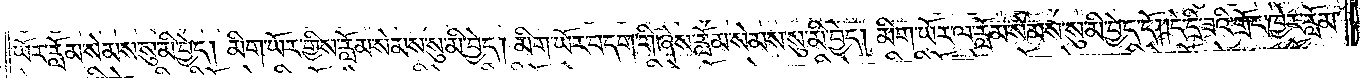ཡོར་རློམ་སེམས་སུ་མི་བྱེད། མིག་ཡོར་གྱིས་རློམ་སེམས་སུ་མི་བྱེད། མིག་ཡོར་བདག་གི་ཞེས་རློམ་སེམས་སུ་མི་བྱེད། མིག་ཡོར་ལ་རློམ་སེམས་སུ་མི་བྱེད་དོ། །དེ་དྲི་ཟའི་གྲོང་ཁྱེར་རློམ་
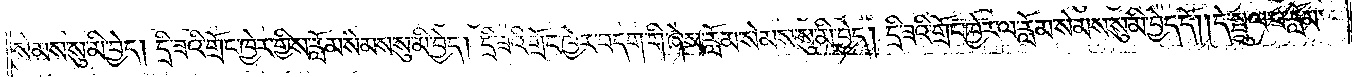སེམས་སུ་མི་བྱེད། དྲི་ཟའི་གྲོང་ཁྱེར་གྱིས་རློམ་སེམས་སུ་མི་བྱེད། དྲི་ཟའི་གྲོང་ཁྱེར་བདག་གི་ཞེས་རློམ་སེམས་སུ་མི་བྱེད། དྲི་ཟའི་གྲོང་ཁྱེར་ལ་རློམ་སེམས་སུ་མི་བྱེད་དོ། །དེ་སྤྲུལ་པ་རློམ་
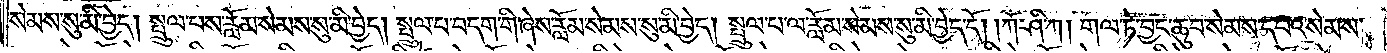སེམས་སུ་མི་བྱེད། སྤྲུལ་པས་རློམ་སེམས་སུ་མི་བྱེད། སྤྲུལ་པ་བདག་གི་ཞེས་རློམ་སེམས་སུ་མི་བྱེད། སྤྲུལ་པ་ལ་རློམ་སེམས་སུ་མི་བྱེད་དོ། །ཀཽ་ཤི་ཀ། གལ་ཏེ་བྱང་ཆུབ་སེམས་དཔའ་སེམས་
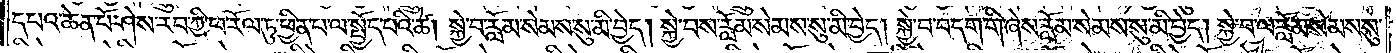དཔའ་ཆེན་པོ་ཤེས་རབ་ཀྱི་ཕ་རོལ་ཏུ་ཕྱིན་པ་ལ་སྤྱོད་པའི་ཚེ། སྐྱེ་བ་རློམ་སེམས་སུ་མི་བྱེད། སྐྱེ་བས་རློམ་སེམས་སུ་མི་བྱེད། སྐྱེ་བ་བདག་གི་ཞེས་རློམ་སེམས་སུ་མི་བྱེད། སྐྱེ་བ་ལ་རློམ་སེམས་སུ་
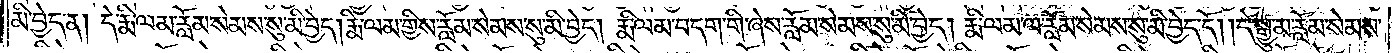མི་བྱེད་ན། དེ་རྨི་ལམ་རློམ་སེམས་སུ་མི་བྱེད། རྨི་ལམ་གྱིས་རློམ་སེམས་སུ་མི་བྱེད། རྨི་ལམ་བདག་གི་ཞེས་རློམ་སེམས་སུ་མི་བྱེད། རྨི་ལམ་ལ་རློམ་སེམས་སུ་མི་བྱེད་དོ། །དེ་སྒྱུ་མ་རློམ་སེམས་
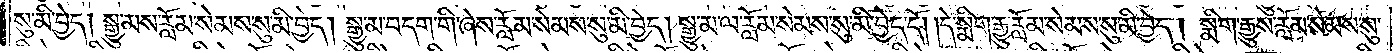སུ་མི་བྱེད། སྒྱུ་མས་རློམ་སེམས་སུ་མི་བྱེད། སྒྱུ་མ་བདག་གི་ཞེས་རློམ་སེམས་སུ་མི་བྱེད། སྒྱུ་མ་ལ་རློམ་སེམས་སུ་མི་བྱེད་དོ། །དེ་སྨིག་རྒྱུ་རློམ་སེམས་སུ་མི་བྱེད། སྨིག་རྒྱུས་རློམ་སེམས་སུ་
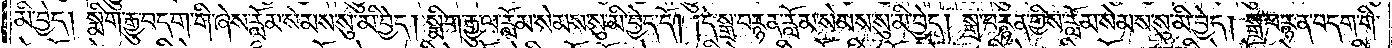མི་བྱེད། སྨིག་རྒྱུ་བདག་གི་ཞེས་རློམ་སེམས་སུ་མི་བྱེད། སྨིག་རྒྱུ་ལ་རློམ་སེམས་སུ་མི་བྱེད་དོ། །དེ་སྒྲ་བརྙན་རློམ་སེམས་སུ་མི་བྱེད། སྒྲ་བརྙན་གྱིས་རློམ་སེམས་སུ་མི་བྱེད། སྒྲ་བརྙན་བདག་གི་
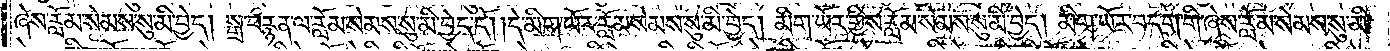ཞེས་རློམ་སེམས་སུ་མི་བྱེད། སྒྲ་བརྙན་ལ་རློམ་སེམས་སུ་མི་བྱེད་དོ། །དེ་མིག་ཡོར་རློམ་སེམས་སུ་མི་བྱེད། མིག་ཡོར་གྱིས་རློམ་སེམས་སུ་མི་བྱེད། མིག་ཡོར་བདག་གི་ཞེས་རློམ་སེམས་སུ་མི་
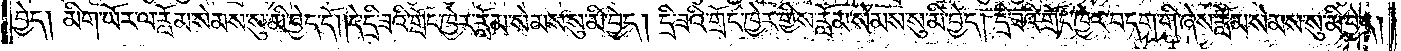བྱེད། མིག་ཡོར་ལ་རློམ་སེམས་སུ་མི་བྱེད་དོ། །དེ་དྲི་ཟའི་གྲོང་ཁྱེར་རློམ་སེམས་སུ་མི་བྱེད། དྲི་ཟའི་གྲོང་ཁྱེར་གྱིས་རློམ་སེམས་སུ་མི་བྱེད། དྲི་ཟའི་གྲོང་ཁྱེར་བདག་གི་ཞེས་རློམ་སེམས་སུ་མི་བྱེད།
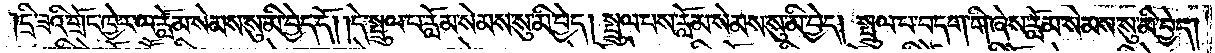དྲི་ཟའི་གྲོང་ཁྱེར་ལ་རློམ་སེམས་སུ་མི་བྱེད་དོ། །དེ་སྤྲུལ་པ་རློམ་སེམས་སུ་མི་བྱེད། སྤྲུལ་པས་རློམ་སེམས་སུ་མི་བྱེད། སྤྲུལ་པ་བདག་གི་ཞེས་རློམ་སེམས་སུ་མི་བྱེད།
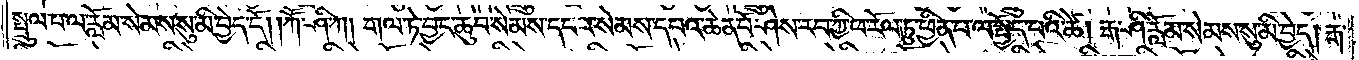སྤྲུལ་པ་ལ་རློམ་སེམས་སུ་མི་བྱེད་དོ། །ཀཽ་ཤི་ཀ། གལ་ཏེ་བྱང་ཆུབ་སེམས་དཔའ་སེམས་དཔའ་ཆེན་པོ་ཤེས་རབ་ཀྱི་ཕ་རོལ་ཏུ་ཕྱིན་པ་ལ་སྤྱོད་པའི་ཚེ། རྒ་ཤི་རློམ་སེམས་སུ་མི་བྱེད། རྒ་
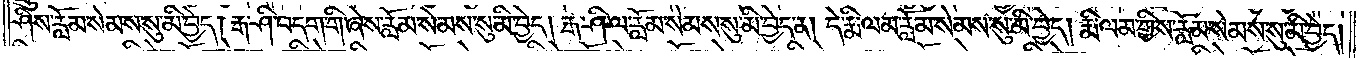ཤིས་རློམ་སེམས་སུ་མི་བྱེད། རྒ་ཤི་བདག་གི་ཞེས་རློམ་སེམས་སུ་མི་བྱེད། རྒ་ཤི་ལ་རློམ་སེམས་སུ་མི་བྱེད་ན། དེ་རྨི་ལམ་རློམ་སེམས་སུ་མི་བྱེད། རྨི་ལམ་གྱིས་རློམ་སེམས་སུ་མི་བྱེད།
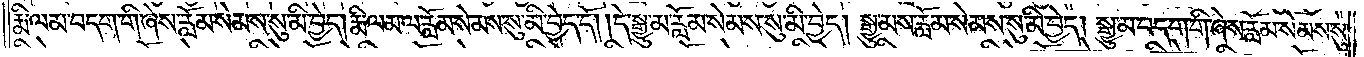རྨི་ལམ་བདག་གི་ཞེས་རློམ་སེམས་སུ་མི་བྱེད། རྨི་ལམ་ལ་རློམ་སེམས་སུ་མི་བྱེད་དོ། །དེ་སྒྱུ་མ་རློམ་སེམས་སུ་མི་བྱེད། སྒྱུ་མས་རློམ་སེམས་སུ་མི་བྱེད། སྒྱུ་མ་བདག་གི་ཞེས་རློམ་སེམས་སུ་
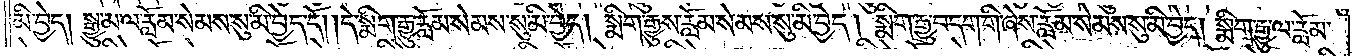མི་བྱེད། སྒྱུ་མ་ལ་རློམ་སེམས་སུ་མི་བྱེད་དོ། །དེ་སྨིག་རྒྱུ་རློམ་སེམས་སུ་མི་བྱེད། སྨིག་རྒྱུས་རློམ་སེམས་སུ་མི་བྱེད། སྨིག་རྒྱུ་བདག་གི་ཞེས་རློམ་སེམས་སུ་མི་བྱེད། སྨིག་རྒྱུ་ལ་རློམ་
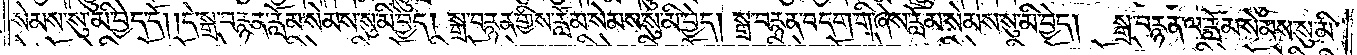སེམས་སུ་མི་བྱེད་དོ། །དེ་སྒྲ་བརྙན་རློམ་སེམས་སུ་མི་བྱེད། སྒྲ་བརྙན་གྱིས་རློམ་སེམས་སུ་མི་བྱེད། སྒྲ་བརྙན་བདག་གི་ཞེས་རློམ་སེམས་སུ་མི་བྱེད། སྒྲ་བརྙན་ལ་རློམ་སེམས་སུ་མི་
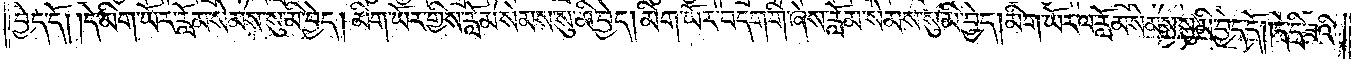བྱེད་དོ། །དེ་མིག་ཡོར་རློམ་སེམས་སུ་མི་བྱེད། མིག་ཡོར་གྱིས་རློམ་སེམས་སུ་མི་བྱེད། མིག་ཡོར་བདག་གི་ཞེས་རློམ་སེམས་སུ་མི་བྱེད། མིག་ཡོར་ལ་རློམ་སེམས་སུ་མི་བྱེད་དོ། །དེ་དྲི་ཟའི་
